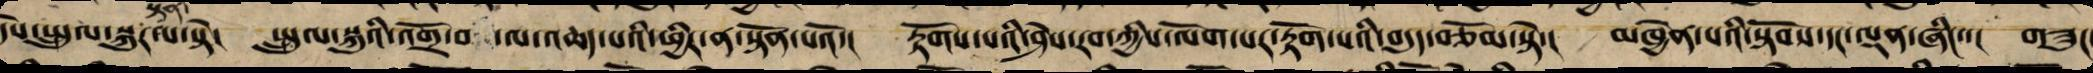དེས་སྤྲུལ་སྐུར་པ་སྟེ། སྤྲུལ་སྐུའི་འགྲོ་བ་ལ་འཆད་པའི་ཕྱིར་ན་སྟོན་པའོ་། རྟོགས་པའི་ཤེས་རབ་ཀྱིས་ལོག་པར་རྟོགས་པའི་བདུད་བཅོམ་སྟེ་། མཁྱེན་པའི་སྟོབས་དང་ལྡན་ཞིང་་། གཟུང
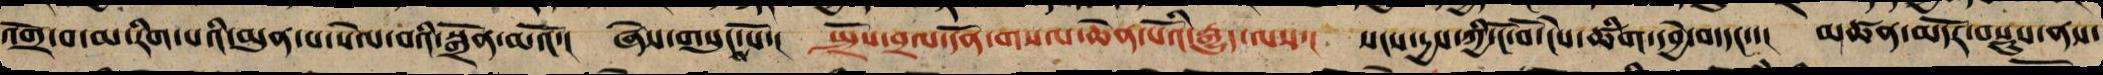འགྲོ་བའི་མ་རིག་པའི་མུན་པ་སེལ་བའི་སྒྲོན་མའོ་། ཞེས་གསུངས་སོ་། སྤྲོས་བྲལ་དོན་གསལ་ཆེན་པོའི་རྒྱུད་ལས་། སངས་དྱས་ཀྱི་ངོ་བོ་ངེས་ཚིག་དབྱེ་བ་དང་་། མཚན་མདོར་བསྡུས་ནས་
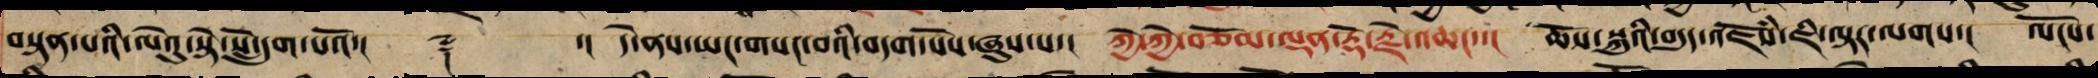བསྟན་པའི་ལེའུ་སྟེ་སོ་དྲུག་པའོ་།། ༈ ་།། དེ་ནས་ཡང་གསང་བའི་བདག་པོས་ཞུས་པ་། ཀྱེ་ཀྱེ་བཅོམ་ལྡན་རྡོ་རྗེ་འཆང་་། ཆོས་སྐུའི་བདུད་འཇོཾས་ཇི་ལྟར་ལགས་། ལོངས་
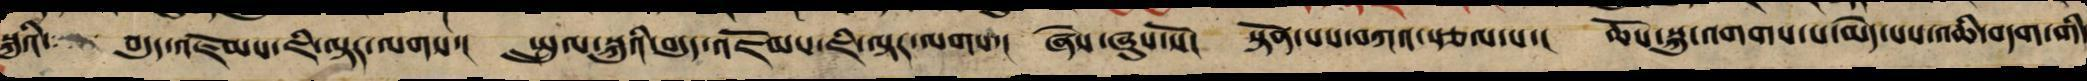སྐུའི་   བདུད་འཇོམས་ཇི་ལྟར་ལགས་། སྤྲུལ་སྐུའི་བདུད་འཇོམས་ཇི་ལྟར་ལགས་། ཞེས་ཞུས་སོ། སྟོན་པས་བཀའ་སྩལ་པ་། ཆོས་སྐུ་འགག་པ་མེད་པས་འཆི་བདག་གི་
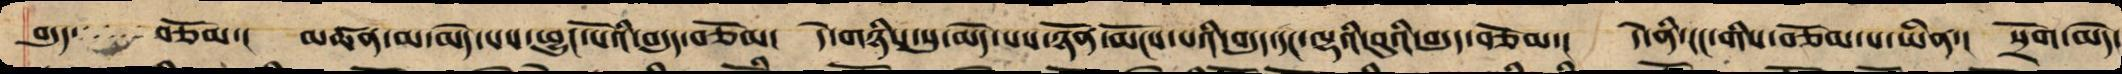བདུད་་་བཅོམ་། མཚན་མ་མེད་པས་ཕུང་པོའི་བདུད་བཅོམ་། དེ་གཉིས་སུ་མེད་པས་ཉོན་མོངས་པའི་བདུད་དང་ལྷའི་བུའི་བདུད་བཅོམ་། དེ་ནི་ངང་གིས་བཅོམ་པ་ཡིན་། སྲོག་མེད་
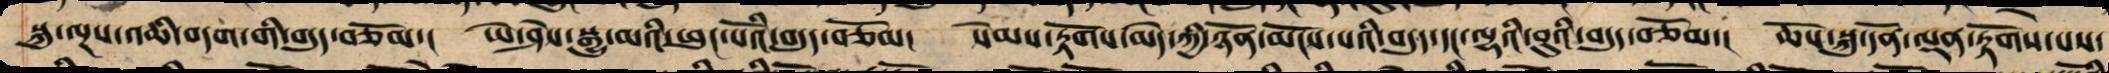སྐུ་ལྔས་འཆི་བདག་གི་བདུད་བཅོམ་། ཡེ་ཤེས་སྒྱུ་མས་ཕུང་པོའི་བདུད་བཅོམ་། སེམས་རྟོགས་མེད་ཀྱིས་ཉོན་མོངས་པའི་བདུད་དང་ལྷའི་བུའི་བདུད་བཅོམ་། ཆོས་སྐུ་དོན་ལྡན་རྟོགས་པས་
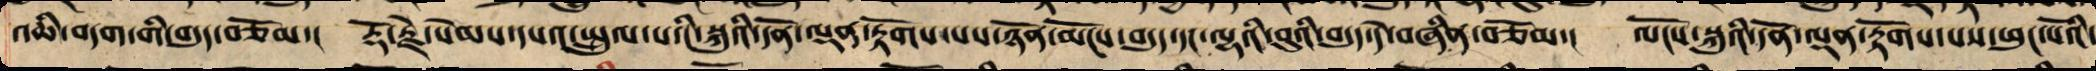འཆི་བདག་གི་བདུད་བཅོམ་། རྡོ་རྗེ་སེམས་དཔའ་སྤྲུལ་པའི་སྐུའི་དོན་ལྡན་རྟོགས་པས་ཉོན་མོངས་བདུད་དང་ལྷའི་བུའི་བདུད་ཀྱང་དེ་བཞིན་བཅོམ་། ལོངས་སྐུའི་དོན་ལྡན་རྟོགས་པས་ཕུང་པོའི་
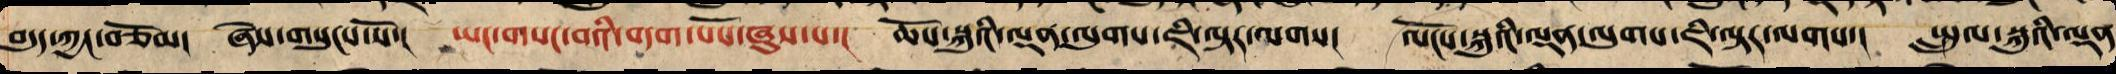བདུད་ཀྱང་བཅོམ་། ཞེས་གསུངས་སོ་། ཡང་གསང་བའི་བདག་པོས་ཞུས་པ་། ཆོས་སྐུའི་ལྡན་ལུགས་ཇི་ལྟར་ལགས་། ལོངས་སྐུའི་ལྡན་ལུགས་ཇི་ལྟར་ལགས་། སྤྲུལ་སྐུའི་ལྡན
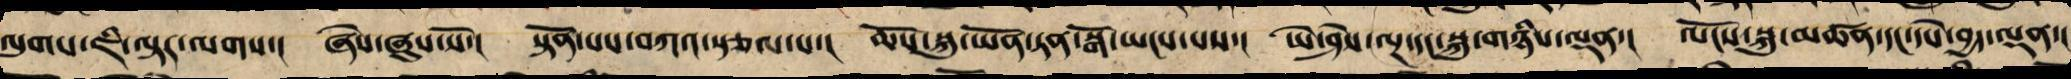ལུགས་ཇི་ལྟར་ལགས་། ཞེས་ཞུས་སོ་། སྟོན་པས་བཀའ་སྩལ་པ་། ཆོས་སྐུ་ཡོན་ཏན་སྒོ་ཡངས་པས་། ཡེ་ཤེས་ལྔ་དང་སྐུ་གཉིས་ལྡན་། ལོངས་སྐུ་མཚན་དང་དཔེ་བྱད་ལྡན་།
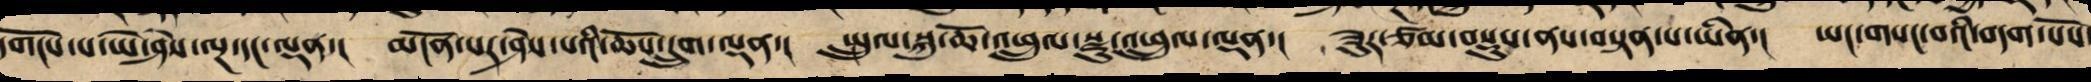དགོངས་པ་ཡེ་ཤེས་ལྔ་དང་ལྡན་། མངོན་པར་ཤེས་པའི་ཆོས་དྲུག་ལྡན་། སྤྲུལ་སྐུ་ཆོ་འཕྲུལ་སྫུ་འཕྲུལ་ལྡན་། ཟུར་ཙམ་བསྡུས་ནས་བསྟན་པ་ཡིན་། ཡང་གསང་བའི་བདག་པོས
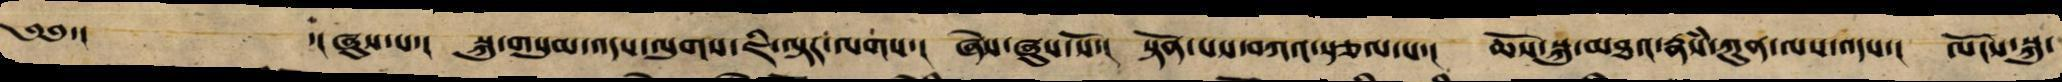༄༅་།  ་།ཞུས་པ་། སྐུ་གསུམ་འདས་ལུགས་ཇི་ལྟར་ལགས་། ཞེས་ཞུས་སོ་། སྟོན་པས་བཀའ་སྩལ་པ་། ཆོས་སྐུ་མཐའ་རྣཾས་ཀུན་ལས་འདས་། ལོངས་སྐུ་
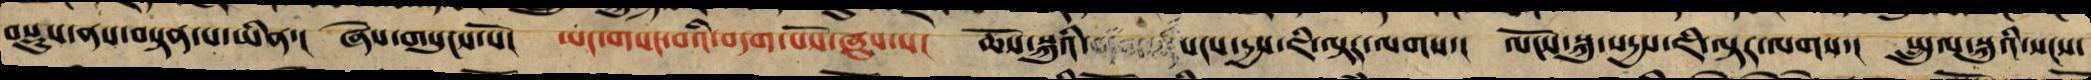བསྡུས་ནས་བསྟན་པ་ཡིན་། ཞེསགསུངས་སོ་། ཡང་གསང་བའི་བདག་པོས་ཞུས་པ་། ཆོས་སྐུའི་སངས་དྱས་ཇི་ལྟར་ལགས་། ལོངས་སྐུའི་སདྱས་ཇི་ལྟར་ལགས་། སྤྲུལ་སྐུའི་སངས་
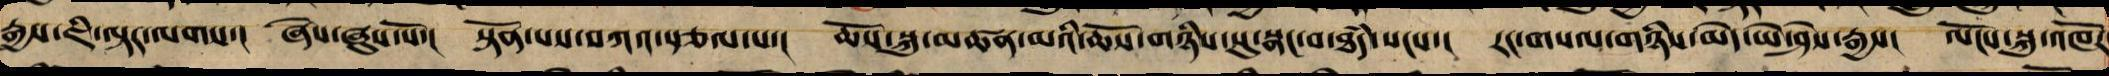རྒྱས་ཇི་ལྟར་ལགས་། ཞེས་ཞུས་སོ་། སྟོན་པས་བཀའ་སྩལ་པ་། ཆོས་སྐུ་མཚན་མའི་ཆོས་གཉིས་སུ་སྣང་བ་ཐཾད་སངས་། རང་གསལ་གཉིས་མེད་ཡེ་ཤེས་རྒྱས་། ལོངས་སྐུ་འཁོར་
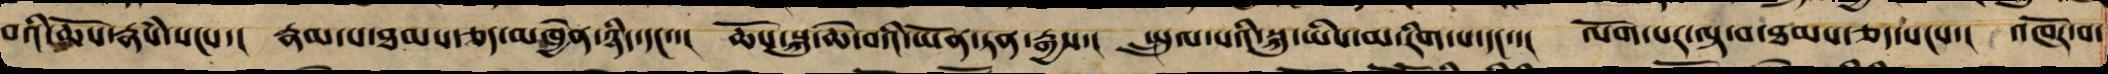བའི་ཆོས་རྣཾས་སངས་། རྣམ་པ་ཐམས་ཅད་མཁྱེན་ཉིད་དང་་། ཆོས་སྐུ་ཆེ་བའི་ཡོན་ཏན་རྒྱས་། སྤྲུལ་པའི་སྐུ་ཡིས་མ་རིག་པ་དང་་། ལོག་པར་ལྟ་བ་ཐམས་ཅད་སངས་། འཁོར་བར་
